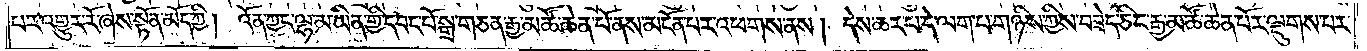པར་འགྱུར་རོ་ཞེས་སྟོན་མོད་ཀྱི། འོན་ཀྱང་ལྷ་མ་ཡིན་གྱི་དབང་པོ་སྒྲ་གཅན་རྒྱ་མཚོ་ཆེན་པོ་ནས་མངོན་པར་འཕགས་ནས། དེས་ཆར་པ་དེ་ལག་པ་གཉིས་ཀྱིས་བཟེད་ཅིང་རྒྱ་མཚོ་ཆེན་པོར་ལྡུགས་པར་
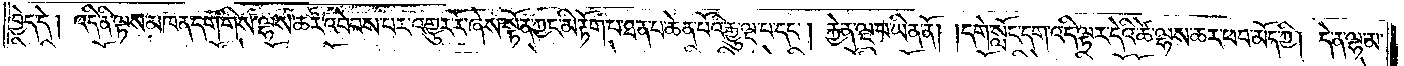བྱེད་དེ། འདི་ནི་ལྟས་མཁན་དག་གིས་ལྷས་ཆར་འབེབས་པར་འགྱུར་རོ་ཞེས་སྟོན་ཀྱང་མི་རྟོག་པ་ཐན་པ་ཆེན་པོའི་རྒྱུ་ལྔ་པ་དང༌། རྐྱེན་ལྔ་པ་ཡིན་ནོ། །དགེ་སློང་དག་འདི་ལྟར་དེའི་ཚེ་ལྷས་ཆར་ཕབ་མོད་ཀྱི། དེ་ན་ལྷ་མ་
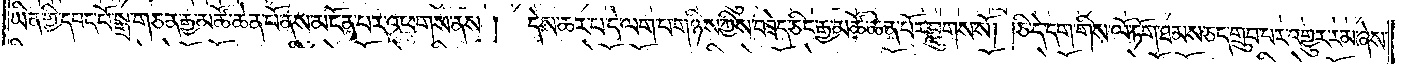ཡིན་གྱི་དབང་པོ་སྒྲ་གཅན་རྒྱ་མཚོ་ཆེན་པོ་ནས་མངོན་པར་འཕགས་ནས། དེས་ཆར་པ་དེ་ལག་པ་གཉིས་ཀྱིས་བཟེད་ཅིང་རྒྱ་མཚོ་ཆེན་པོར་བླུགས་སོ། །ཅི་དེ་དག་གིས་ལོ་ཏོག་ཐམས་ཅད་གྲུབ་པར་འགྱུར་རམ་ཞེས་
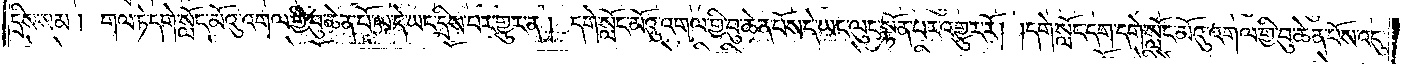དྲིས་སམ། གལ་ཏེ་དགེ་སློང་མོའུ་འགལ་གྱི་བུ་ཆེན་པོ་ལ་དེ་ཡང་དྲིས་པར་གྱུར་ན། དགེ་སློང་མོའུ་འགལ་གྱི་བུ་ཆེན་པོས་དེ་ཡང་ལུང་སྟོན་པར་འགྱུར་རོ། །དགེ་སློང་དག་དགེ་སློང་མོའུ་འགལ་གྱི་བུ་ཆེན་པོས་འདུ་
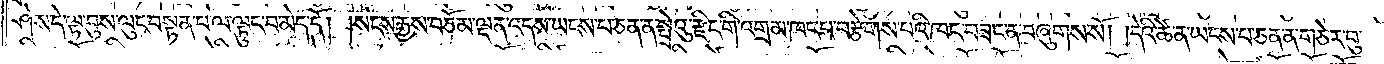ཤེས་དེ་ལྟ་བུས་ལུང་བསྟན་པ་ལ་ལྟུང་བ་མེད་དོ། །སངས་རྒྱས་བཅོམ་ལྡན་འདས་ཡངས་པ་ཅན་ན་སྤྲེའུ་རྫིང་གི་འགྲམ་ཁང་པ་བརྩེགས་པའི་ཁང་བཟང་ན་བཞུགས་སོ། །དེའི་ཚེ་ན་ཡངས་པ་ཅན་ན་གཅེར་བུ་
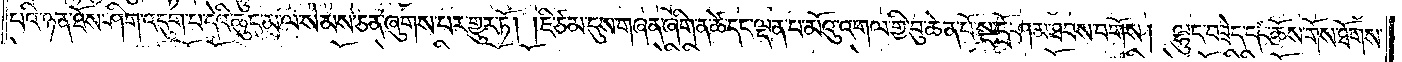པའི་ཉན་ཐོས་ཤིག་འདུག་པ་དེའི་ཆུང་མ་ལ་སེམས་ཅན་ཞུགས་པར་གྱུར་ཏོ། །ཇི་ཙམ་དུས་གཞན་ཞིག་ན་ཚེ་དང་ལྡན་པ་མོའུ་འགལ་གྱི་བུ་ཆེན་པོ་སྔ་དྲོ་ཤམ་ཐབས་བགོས། ལྷུང་བཟེད་དང་ཆོས་གོས་ཐོགས་
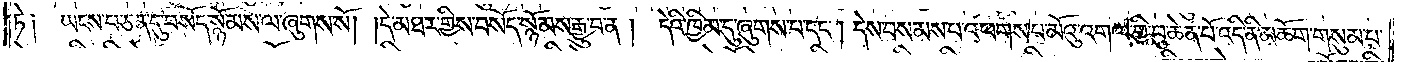ཏེ༑ ཡངས་པ་ཅན་དུ་བསོད་སྙོམས་ལ་ཞུགས་སོ། །དེ་མཐར་གྱིས་བསོད་སྙོམས་རྒྱུ་བ་ན། དེའི་ཁྱིམ་དུ་ཞུགས་པ་དང༌། དེས་བསམས་པ་འཕགས་པ་མོའུ་འགལ་གྱི་བུ་ཆེན་པོ་འདི་ནི་མཆོག་གསུམ་པ་
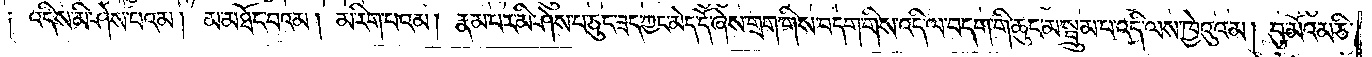སྟེ༑ འདིས་མི་ཤེས་པའམ། མ་མཐོང་བའམ། མ་རིག་པའམ། རྣམ་པར་མི་ཤེས་པ་ཅུང་ཟད་ཀྱང་མེད་དོ་ཞེས་གྲག་གིས་བདག་གིས་འདི་ལ་བདག་གི་ཆུང་མ་སྦྲུམ་པ་འདི་ལས་ཁྱེའུའམ། བུ་མོའམ་ཅི་
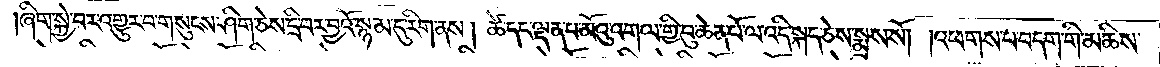།ཞིག་སྐྱེ་བར་འགྱུར་བ་གསུངས་ཤིག་ཅེས་དྲི་བར་བྱའོ་སྙམ་དུ་རིག་ནས། ཚེ་དང་ལྡན་པ་མོའུ་འགལ་གྱི་བུ་ཆེན་པོ་ལ་འདི་སྐད་ཅེས་སྨྲས་སོ། །འཕགས་པ་བདག་གི་མཆིས་
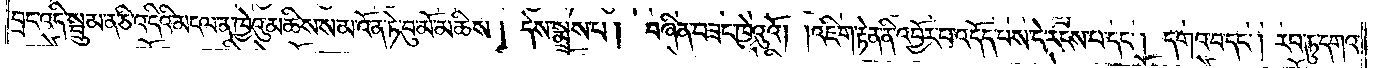བྲང་འདི་སྦྲུམ་ན་ཅི་འདིའི་མངལ་ན་ཁྱེའུ་མཆིས་སམ་འོན་ཏེ་བུ་མོ་མཆིས། དེས་སྨྲས་པ། བཞིན་བཟང་ཁྱེའུའོ། །འཇིག་རྟེན་ནི་འབྱོར་པ་འདོད་པས་དེ་རངས་པ་དང༌། དགའ་བ་དང༌། རབ་ཏུ་དགའ་
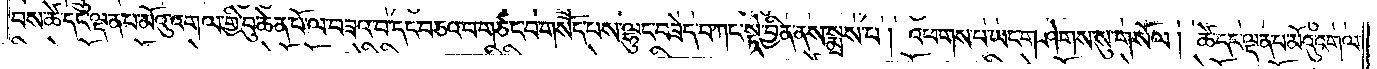བས་ཚེ་དང་ལྡན་པ་མོའུ་འགལ་གྱི་བུ་ཆེན་པོ་ལ་བཟའ་བ་དང་བཅའ་བ་གཙང་བ་གསོད་པས་ལྷུང་བཟེད་བཀང་སྟེ་བྱིན་ནས་སྨྲས་པ། འཕགས་པ་ཡང་གཤེགས་སུ་གསོལ། ཚེ་དང་ལྡན་པ་མོའུ་འགལ་
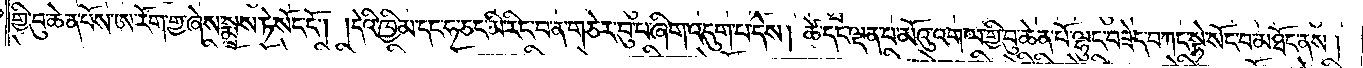གྱི་བུ་ཆེན་པོས་ཨ་རོག་གྱ་ཞེས་སྨྲས་ཏེ་སོང་ངོ༌། །དེའི་ཁྱིམ་དང་ཧ་ཅང་མི་རིང་བ་ན་གཅེར་བུ་པ་ཞིག་འདུག་པ་དེས། ཚེ་དང་ལྡན་པ་མོའུ་འགལ་གྱི་བུ་ཆེན་པོ་ལྷུང་བཟེད་བཀང་སྟེ་སོང་བ་མཐོང་ནས་།
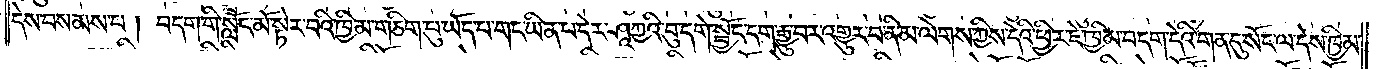དེས་བསམས་པ། བདག་གི་སློང་མོ་སྟེར་བའི་ཁྱིམ་གཅིག་པུ་ཡོད་པ་གང་ཡིན་པ་དེར་ཤཱཀྱའི་བུ་དགེ་སྦྱོང་དག་རྒྱུ་བར་འགྱུར་བ་ནི་མ་ལེགས་ཀྱིས་དེའི་ཕྱིར་ཇེ་ཁྱིམ་བདག་དེའི་གན་དུ་སོང་ལ་དེས་ཁྱིམ་
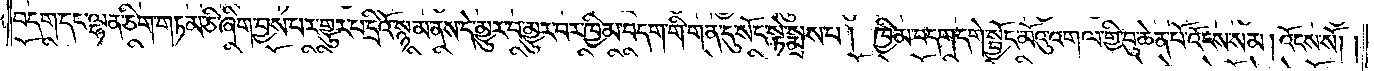བདག་དང་ལྷན་ཅིག་གཏམ་ཅི་ཞིག་བྱས་པར་གྱུར་པ་དྲིའོ་སྙམ་ནས་དེ་མྱུར་བ་མྱུར་བར་ཁྱིམ་བདག་གི་གན་དུ་སོང་སྟེ་སྨྲས་པ། ཁྱིམ་བདག་དགེ་སྦྱོང་མོའུ་འགལ་གྱི་བུ་ཆེན་པོ་འོངས་སམ། འོངས་སོ།
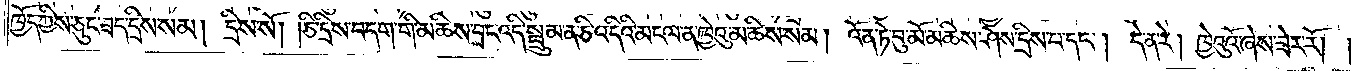ཁྱོད་ཀྱིས་ཅུང་ཟད་དྲིས་སམ། དྲིས་སོ། །ཅི་དྲིས་བདག་གི་མཆིས་བྲང་འདི་སྦྲུམ་ན་ཅི་འདིའི་མངལ་ན་ཁྱེའུ་མཆིས་སམ། འོན་ཏེ་བུ་མོ་མཆིས་ཤེས་དྲིས་པ་དང༌། དེ་ན་རེ། ཁྱེའུའོ་ཞེས་ཟེར་རོ། །
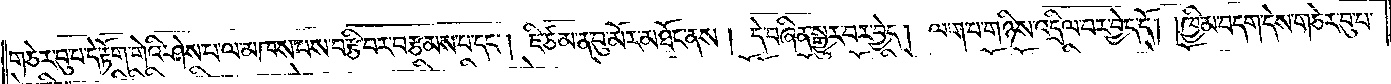གཅེར་བུ་པ་དེ་རྟོག་གེའི་ཤེས་པ་ལ་མཁས་པས་བརྩི་བར་བརྩམས་པ་དང༌། ཇི་ཙམ་ན་བུ་མོར་མཐོང་ནས། དེ་བཞིན་སྒྱུར་བར་བྱེད། ལག་པ་གཉིས་འདྲིལ་བར་བྱེད་དོ། །ཁྱིམ་བདག་དེས་གཅེར་བུ་པ་
